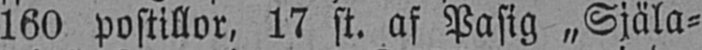160 postillor, 17 st. af Pasig „Själa-
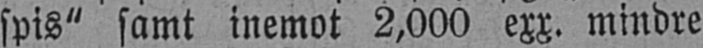spis" samt inemot 2,000 exx. mindre
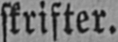skrifter.
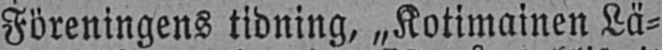Föreningens tidning, „Kotimainen Lä-
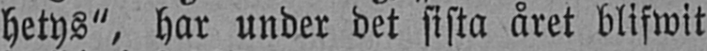hetys", har under det sista året blifwit
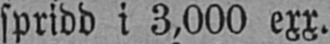spridd i 3,000 exx.
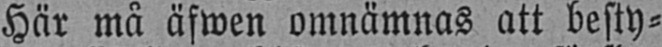Här må äfwen omnämnas att besty-
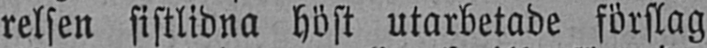relsen sistlidna höst utarbetade förslag
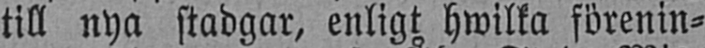till nya stadgar, enligt hwilka förenin-
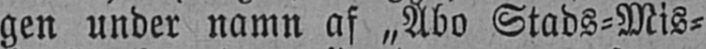gen under namn af „Åbo Stads-Mis-
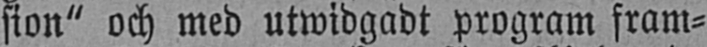sion" och med utwidgadt program fram-
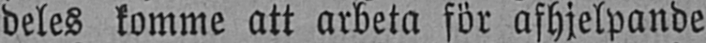deles komme att arbeta för afhjelpande
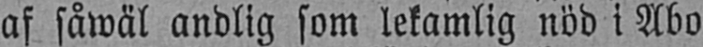af såwäl andlig som lekamlig nöd i Abo
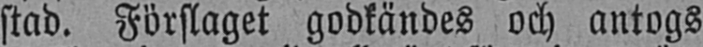stad. Förslaget godkändes och antogs
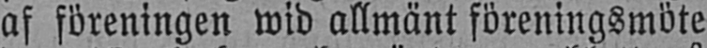af föreningen wid allmänt föreningsmöte
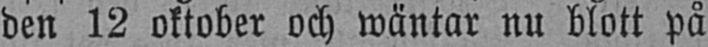den 12 oktober och wäntar nu blott på
